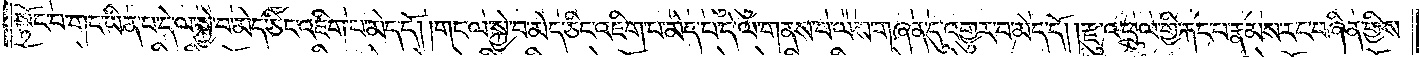སྟོང་པ་གང་ཡིན་པ་དེ་ལ་སྐྱེ་བ་མེད་ཅིང་འཇིག་པ་མེད་དོ། །གང་ལ་སྐྱེ་བ་མེད་ཅིང་འཇིག་པ་མེད་པ་དེ་ལ་གནས་པ་ལས་གཞན་དུ་འགྱུར་བ་མེད་དོ། །རྫུ་འཕྲུལ་གྱི་རྐང་པ་རྣམས་རང་བཞིན་གྱིས་
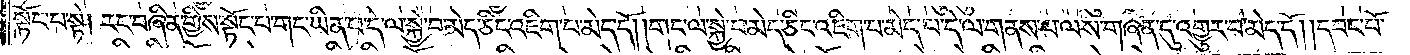སྟོང་པ་སྟེ། རང་བཞིན་གྱིས་སྟོང་པ་གང་ཡིན་པ་དེ་ལ་སྐྱེ་བ་མེད་ཅིང་འཇིག་པ་མེད་དོ། །གང་ལ་སྐྱེ་བ་མེད་ཅིང་འཇིག་པ་མེད་པ་དེ་ལ་གནས་པ་ལས་གཞན་དུ་འགྱུར་བ་མེད་དོ། །དབང་པོ་
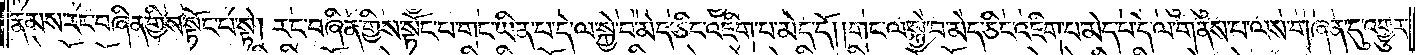རྣམས་རང་བཞིན་གྱིས་སྟོང་པ་སྟེ། རང་བཞིན་གྱིས་སྟོང་པ་གང་ཡིན་པ་དེ་ལ་སྐྱེ་བ་མེད་ཅིང་འཇིག་པ་མེད་དོ། །གང་ལ་སྐྱེ་བ་མེད་ཅིང་འཇིག་པ་མེད་པ་དེ་ལ་གནས་པ་ལས་གཞན་དུ་འགྱུར་
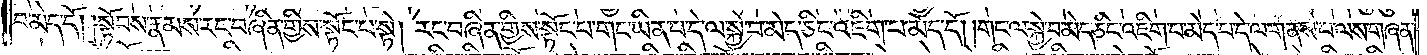བ་མེད་དོ། །སྟོབས་རྣམས་རང་བཞིན་གྱིས་སྟོང་པ་སྟེ། རང་བཞིན་གྱིས་སྟོང་པ་གང་ཡིན་པ་དེ་ལ་སྐྱེ་བ་མེད་ཅིང་འཇིག་པ་མེད་དོ༎ གང་ལ་སྐྱེ་བ་མེད་ཅིང་འཇིག་པ་མེད་པ་དེ་ལ་གནས་པ་ལས་གཞན་
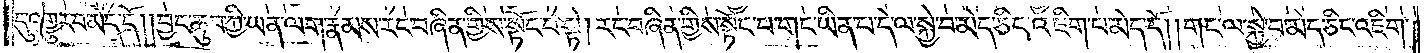དུ་འགྱུར་བ་མེད་དོ། །བྱང་ཆུབ་ཀྱི་ཡན་ལག་རྣམས་རང་བཞིན་གྱིས་སྟོང་པ་སྟེ། རང་བཞིན་གྱིས་སྟོང་པ་གང་ཡིན་པ་དེ་ལ་སྐྱེ་བ་མེད་ཅིང་འཇིག་པ་མེད་དོ། །གང་ལ་སྐྱེ་བ་མེད་ཅིང་འཇིག་
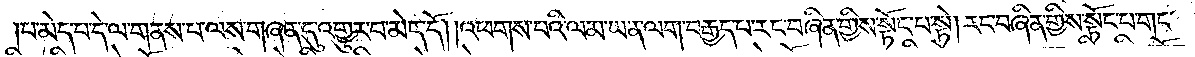པ་མེད་པ་དེ་ལ་གནས་པ་ལས་གཞན་དུ་འགྱུར་བ་མེད་དོ། །འཕགས་པའི་ལམ་ཡན་ལག་བརྒྱད་པ་རང་བཞིན་གྱིས་སྟོང་པ་སྟེ། རང་བཞིན་གྱིས་སྟོང་པ་གང་
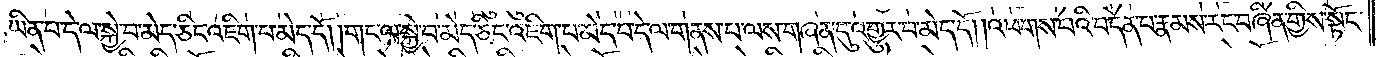ཡིན་པ་དེ་ལ་སྐྱེ་བ་མེད་ཅིང་འཇིག་པ་མེད་དོ། །གང་ལ་སྐྱེ་བ་མེད་ཅིང་འཇིག་པ་མེད་པ་དེ་ལ་གནས་པ་ལས་གཞན་དུ་འགྱུར་བ་མེད་དོ། །འཕགས་པའི་བདེན་པ་རྣམས་རང་བཞིན་གྱིས་སྟོང་
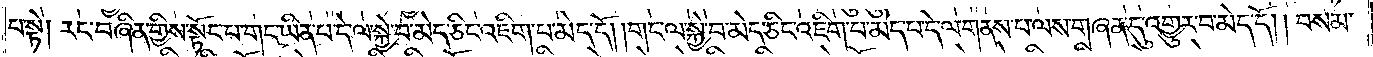པ་སྟེ། རང་བཞིན་གྱིས་སྟོང་པ་གང་ཡིན་པ་དེ་ལ་སྐྱེ་བ་མེད་ཅིང་འཇིག་པ་མེད་དོ། །གང་ལ་སྐྱེ་བ་མེད་ཅིང་འཇིག་པ་མེད་པ་དེ་ལ་གནས་པ་ལས་གཞན་དུ་འགྱུར་བ་མེད་དོ། །བསམ་
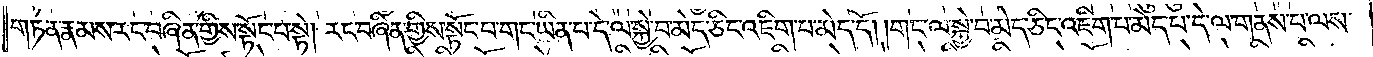གཏན་རྣམས་རང་བཞིན་གྱིས་སྟོང་པ་སྟེ། རང་བཞིན་གྱིས་སྟོང་པ་གང་ཡིན་པ་དེ་ལ་སྐྱེ་བ་མེད་ཅིང་འཇིག་པ་མེད་དོ། །གང་ལ་སྐྱེ་བ་མེད་ཅིང་འཇིག་པ་མེད་པ་དེ་ལ་གནས་པ་ལས་
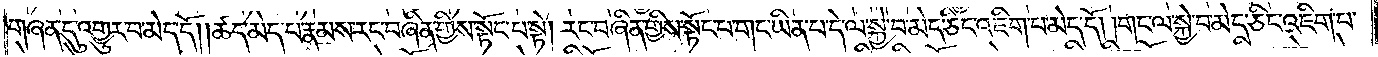གཞན་དུ་འགྱུར་བ་མེད་དོ། །ཚད་མེད་པ་རྣམས་རང་བཞིན་གྱིས་སྟོང་པ་སྟེ། རང་བཞིན་གྱིས་སྟོང་པ་གང་ཡིན་པ་དེ་ལ་སྐྱེ་བ་མེད་ཅིང་འཇིག་པ་མེད་དོ། །གང་ལ་སྐྱེ་བ་མེད་ཅིང་འཇིག་པ་
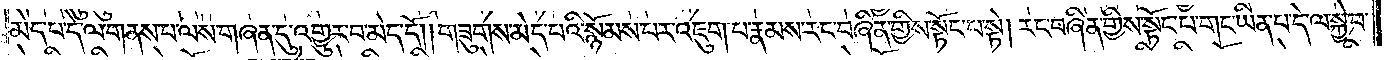མེད་པ་དེ་ལ་གནས་པ་ལས་གཞན་དུ་འགྱུར་བ་མེད་དོ། །གཟུགས་མེད་པའི་སྙོམས་པར་འཇུག་པ་རྣམས་རང་བཞིན་གྱིས་སྟོང་པ་སྟེ། རང་བཞིན་གྱིས་སྟོང་པ་གང་ཡིན་པ་དེ་ལ་སྐྱེ་བ་
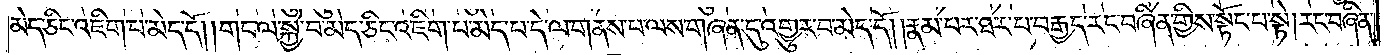མེད་ཅིང་འཇིག་པ་མེད་དོ། །གང་ལ་སྐྱེ་བ་མེད་ཅིང་འཇིག་པ་མེད་པ་དེ་ལ་གནས་པ་ལས་གཞན་དུ་འགྱུར་བ་མེད་དོ། །རྣམ་པར་ཐར་པ་བརྒྱད་རང་བཞིན་གྱིས་སྟོང་པ་སྟེ། རང་བཞིན་
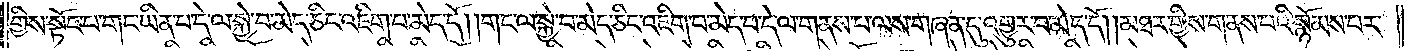གྱིས་སྟོང་པ་གང་ཡིན་པ་དེ་ལ་སྐྱེ་བ་མེད་ཅིང་འཇིག་པ་མེད་དོ། །གང་ལ་སྐྱེ་བ་མེད་ཅིང་འཇིག་པ་མེད་པ་དེ་ལ་གནས་པ་ལས་གཞན་དུ་འགྱུར་བ་མེད་དོ། །མཐར་གྱིས་གནས་པའི་སྙོམས་པར་
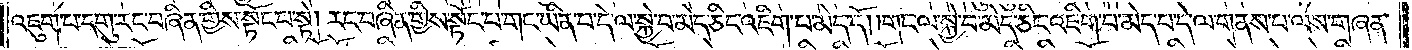འཇུག་པ་དགུ་རང་བཞིན་གྱིས་སྟོང་པ་སྟེ། རང་བཞིན་གྱིས་སྟོང་པ་གང་ཡིན་པ་དེ་ལ་སྐྱེ་བ་མེད་ཅིང་འཇིག་པ་མེད་དོ། །གང་ལ་སྐྱེ་བ་མེད་ཅིང་འཇིག་པ་མེད་པ་དེ་ལ་གནས་པ་ལས་གཞན་
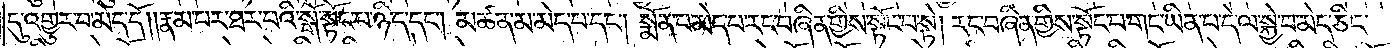དུ་འགྱུར་བ་མེད་དོ། །རྣམ་པར་ཐར་པའི་སྒོ་སྟོང་པ་ཉིད་དང༌། མཚན་མ་མེད་པ་དང༌། སྨོན་པ་མེད་པ་རང་བཞིན་གྱིས་སྟོང་པ་སྟེ། རང་བཞིན་གྱིས་སྟོང་པ་གང་ཡིན་པ་དེ་ལ་སྐྱེ་བ་མེད་ཅིང་
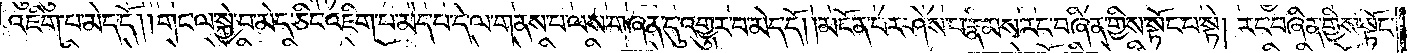འཇིག་པ་མེད་དོ། །གང་ལ་སྐྱེ་བ་མེད་ཅིང་འཇིག་པ་མེད་པ་དེ་ལ་གནས་པ་ལས་གཞན་དུ་འགྱུར་བ་མེད་དོ། །མངོན་པར་ཤེས་པ་རྣམས་རང་བཞིན་གྱིས་སྟོང་པ་སྟེ། རང་བཞིན་གྱིས་སྟོང་
